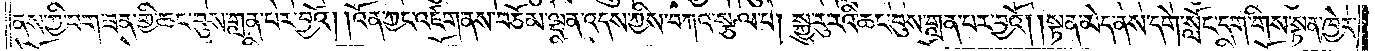ནས་ཀྱི་བག་ཟན་གྱི་ཆང་བུས་གླན་པར་བྱའོ། །འོན་ཀྱང་འཛག་ནས་བཅོམ་ལྡན་འདས་ཀྱིས་བཀའ་སྩལ་པ། སྐྱུ་རུ་རའི་ཆང་བུས་གླན་པར་བྱའོ། །སྟན་མེད་ནས་དགེ་སློང་དག་གིས་སྟན་ཁྱེར་
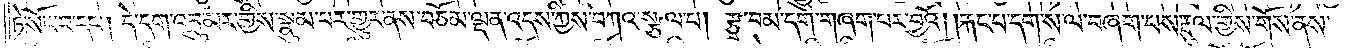ཏེ་སོང་བ་དང༌། དེ་དག་འབྲུ་མར་གྱིས་སྣུམ་པར་གྱུར་ནས་བཅོམ་ལྡན་འདས་ཀྱིས་བཀའ་སྩལ་པ། རྩྭ་བམ་དག་གཞག་པར་བྱའོ། །རྐང་པ་དག་ས་ལ་བཞག་པས་རྡུལ་གྱིས་གོས་ནས་
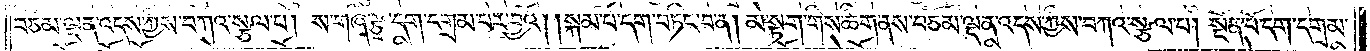བཅོམ་ལྡན་འདས་ཀྱིས་བཀའ་སྩལ་པ། ས་གཞི་རྩྭ་དག་དགྲམ་པར་བྱའོ། །སྐམ་པོ་དག་བཏིང་བ་ན། མེ་སྟག་གིས་ཚིག་ནས་བཅོམ་ལྡན་འདས་ཀྱིས་བཀའ་སྩལ་པ། སྔོན་པོ་དག་དགྲམ་
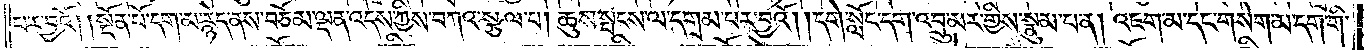པར་བྱའོ། །སྔོན་པོ་དག་མ་རྙེད་ནས་བཅོམ་ལྡན་འདས་ཀྱིས་བཀའ་སྩལ་པ། ཆུས་སྤངས་ལ་དགྲམ་པར་བྱའོ། །དགེ་སློང་དག་འབྲུ་མར་གྱིས་སྣུམ་པ་ན། འཇག་མ་དང་གསེག་མ་དག་གི་
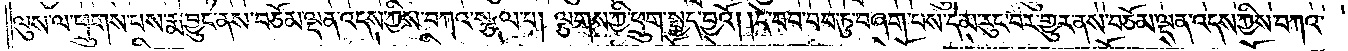ལུས་ལ་ཕྲུགས་པས་རྨ་བྱུང་ནས་བཅོམ་ལྡན་འདས་ཀྱིས་བཀའ་སྩལ་པ། ལྕགས་ཀྱི་ཕྲུག་སྤྱད་བྱའོ། །དེ་བབ་བབ་ཏུ་བཞག་པས་དེ་མ་རུང་བར་གྱུར་ནས་བཅོམ་ལྡན་འདས་ཀྱིས་བཀའ་
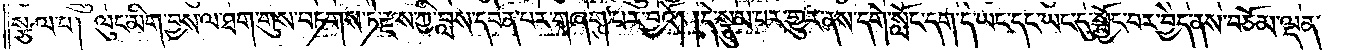སྩལ་པ། ལུང་མིག་བྱས་ལ་ཐག་གུས་བཏགས་ཏེ་རྫས་ཀྱི་བླས་དབེན་པར་གཞག་པར་བྱའོ། །དེ་སྣུམ་པར་གྱུར་ནས་དགེ་སློང་དག་དེ་ཡང་དང་ཡང་དུ་སྦྱོང་བར་བྱེད་ནས་བཅོམ་ལྡན་
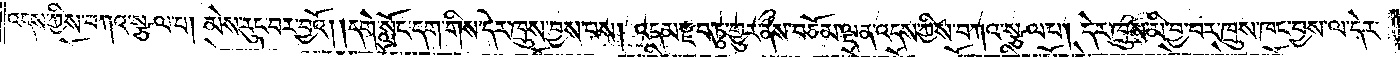འདས་ཀྱིས་བཀའ་སྩལ་པ། མེས་རུང་བར་བྱའོ། །དགེ་སློང་དག་གིས་དེར་ཁྲུས་བྱས་པས། འདམ་རྫབ་ཏུ་གྱུར་ནས་བཅོམ་ལྡན་འདས་ཀྱིས་བཀའ་སྩལ་པ། དེར་ཁྲུས་མི་བྱ་བར་ཁྲུས་ཁང་བྱས་ལ་དེར་
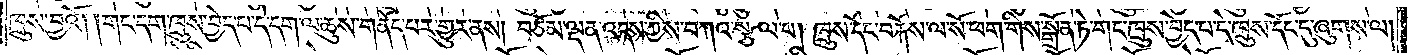ཁྲུས་བྱའོ། །གང་དག་ཁྲུས་བྱེད་པ་དེ་དག་ལ་ཆུས་གནོད་པར་གྱུར་ནས། བཅོམ་ལྡན་འདས་ཀྱིས་བཀའ་སྩལ་པ། ཁྲུས་དོང་བརྐོས་ལ་སོ་ཕག་གིས་སྒྲོན་ཏེ་གང་ཁྲུས་བྱེད་པ་དེ་ཁྲུས་དོང་དུ་ཞུགས་ལ།
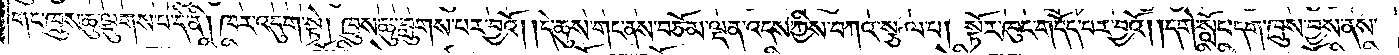གང་ཁྲུས་ཆུ་ལྡུགས་པ་དེ་ནི། ཁར་འདུག་སྟེ། ཁྲུས་ཆུ་བླུགས་པར་བྱའོ། །དེ་ཆུས་གང་ནས་བཅོམ་ལྡན་འདས་ཀྱིས་བཀའ་སྩལ་པ། སྟོར་ཁུང་གདོད་པར་བྱའོ། །དགེ་སློང་དག་ཁྲུས་བྱས་ནས་
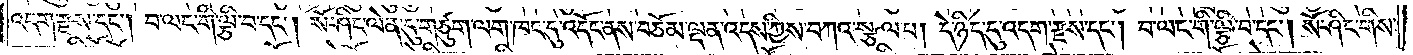འདག་རྫས་དང༌། བ་ལང་གི་ལྕི་བ་དང༌། སོ་ཤིང་ལེན་དུ་གཙུག་ལག་ཁང་དུ་འདོང་ནས་བཅོམ་ལྡན་འདས་ཀྱིས་བཀའ་སྩལ་པ། དེ་ཉིད་དུ་འདག་རྫས་དང༌། བ་ལང་གི་ལྕི་བ་དང༌། སོ་ཤིང་གིས་
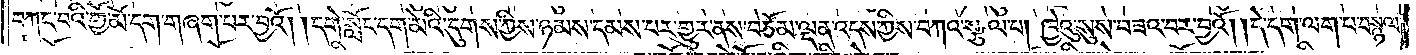བཀང་བའི་གྱོ་མོ་དག་གཞག་པར་བྱའོ། །དགེ་སློང་དག་མེའི་དུགས་ཀྱིས་ཉམས་དམས་པར་གྱུར་ནས་བཅོམ་ལྡན་འདས་ཀྱིས་བཀའ་སྩལ་པ། ཁྱེའུ་སུས་བཟའ་བར་བྱའོ། །དེ་དག་ལག་པ་བསྙལ་
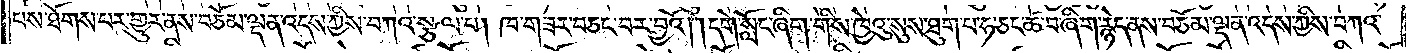པས་ཐོགས་པར་གྱུར་ནས་བཅོམ་ལྡན་འདས་ཀྱིས་བཀའ་སྩལ་པ། ཁ་གཟར་བཅང་བར་བྱའོ། །དགེ་སློང་ཞིག་གིས་ཁྱེའུ་སུས་ཐུག་པ་ཧ་ཅང་ཚ་བ་ཞིག་རྙེད་ནས་བཅོམ་ལྡན་འདས་ཀྱིས་བཀའ་
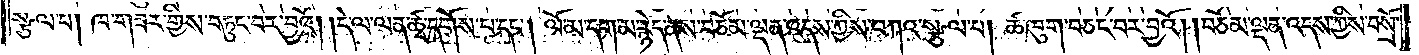སྩལ་པ། ཁ་གཟར་གྱིས་བཏུང་བར་བྱའོ། །དེ་ལ་ལན་ཚྭ་དགོས་པ་དང༌། ལོ་མ་དག་མ་རྙེད་ནས་བཅོམ་ལྡན་འདས་ཀྱིས་བཀའ་སྩལ་པ། ཚ་ཁུག་བཅང་བར་བྱའོ། །བཅོམ་ལྡན་འདས་ཀྱིས་བསྲོ་
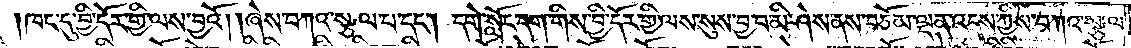ཁང་དུ་བྱི་དོར་གྱི་ལས་བྱའོ། །ཞེས་བཀའ་སྩལ་པ་དང༌། དགེ་སློང་དག་གིས་བྱི་དོར་གྱི་ལས་སུས་བྱ་བ་མི་ཤེས་ནས་བཅོམ་ལྡན་འདས་ཀྱིས་བཀའ་སྩལ་
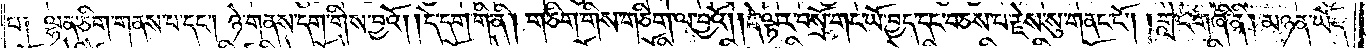པ༑ ལྷན་ཅིག་གནས་པ་དང༌། ཉེ་གནས་དག་གིས་བྱའོ། །དེ་དག་གི་ནི། གཅིག་གིས་གཅིག་ལ་བྱའོ། །དེ་ལྟར་བསྲོ་གང་ཡོ་བྱད་དང་བཅས་པ་རྗེས་སུ་གནང་ངོ༌། །གླེང་གཞི་ནི། མཉན་ཡོད་
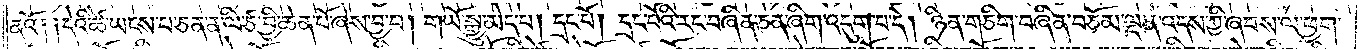ནའོ༑ ༑དེའི་ཚེ་ཡངས་པ་ཅན་ན་ལི་ཙ་བྱི་ཆེན་པོ་ཞེས་བྱ་བ། གཡོ་སྒྱུ་མེད་པ། དྲང་པོ། དྲང་པོའི་རང་བཞིན་ཅན་ཞིག་འདུག་པ་དེ། ཉིན་གཅིག་བཞིན་བཅོམ་ལྡན་འདས་ཀྱི་ཞབས་ལ་ཕྱག་
